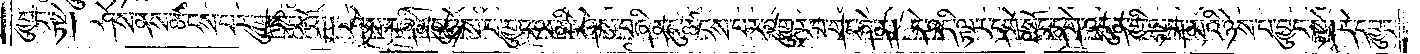བྱུང་སྟེ། ཤེས་ནས་ཚངས་པར་གྱུར་པའོ། །ཤེས་བཞིན་དུ་ཉེས་པ་བྱུང་ལ་མི་ཤེས་བཞིན་དུ་ཚངས་པར་འགྱུར་བ་གང་ཞེ་ན། དེ་འདི་ལྟར་དགེ་སློང་དགེ་འདུན་གྱི་ལྷག་མའི་ཉེས་པ་བྱུང་སྟེ། དེ་དབྱུང་
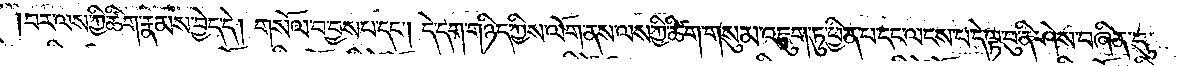བར་ལས་ཀྱི་ཚིག་རྣམས་བྱེད་དེ། གསོལ་བ་བྱས་པ་དང༌། དེ་དག་གཉིད་ཀྱིས་ལོག་ནས་ལས་ཀྱི་ཚིག་གསུམ་འཇུག་ཏུ་ཕྱིན་པ་དང་ལངས་པ་དེ་ལྟ་བུ་ནི་ཤེས་བཞིན་དུ་
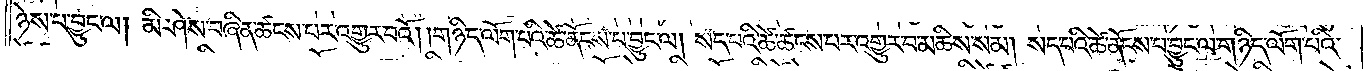ཉེས་པ་བྱུང་ལ། མི་ཤེས་བཞིན་ཚངས་པར་འགྱུར་བའོ། །གཉིད་ལོག་པའི་ཚེ་ནོངས་པ་བྱུང་ལ། སད་པའི་ཚེ་ཚངས་པར་འགྱུར་བ་མཆིས་སམ། སད་པའི་ཚེ་ནོངས་པ་བྱུང་ལ་གཉིད་ལོག་པའི་
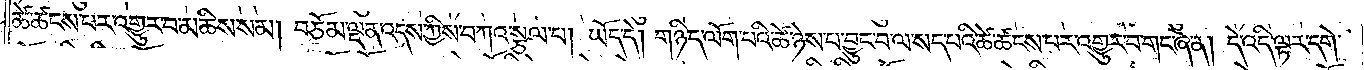ཚེ་ཚངས་པར་འགྱུར་བ་མཆིས་སམ། བཅོམ་ལྡན་འདས་ཀྱིས་བཀའ་སྩལ་པ། ཡོད་དེ། གཉིད་ལོག་པའི་ཚེ་ཉེས་པ་བྱུང་བ་ལ་སད་པའི་ཚེ་ཚངས་པར་འགྱུར་བ་གང་ཞེ་ན། དེ་འདི་ལྟར་དགེ་
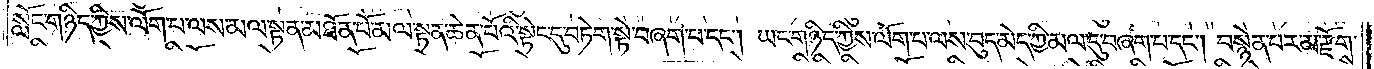སློང་གཉིད་ཀྱིས་ལོག་པ་ལས་མལ་སྟན་མཐོན་པོ་མལ་སྟན་ཆེན་པོའི་སྟེང་དུ་བཏེག་སྟེ་བཞག་པ་དང༌། ཡང་གཉིད་ཀྱིས་ལོག་པ་ལས་བུད་མེད་ཀྱི་མལ་དུ་བཞག་པ་དང༌། བསྙེན་པར་མ་རྫོགས་
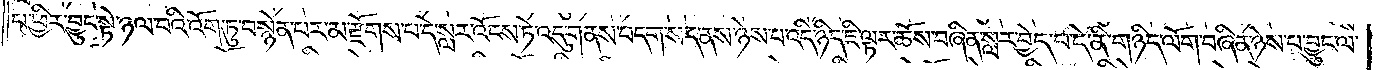པ་ཕྱིར་བྱུང་སྟེ་ཉལ་བའི་འོག་ཏུ་བསྙེན་པར་མ་རྫོགས་པ་དེ་སླར་འོངས་ཏེ་འདུ་གནས་བདག་སད་ནས་ཉེས་པ་འདི་ཉིད་ཇི་ལྟར་ཆོས་བཞིན་སླར་བྱེད་པ་དེ་ནི་གཉིད་ལོག་བཞིན་ཉེས་པ་བྱུང་ལ་
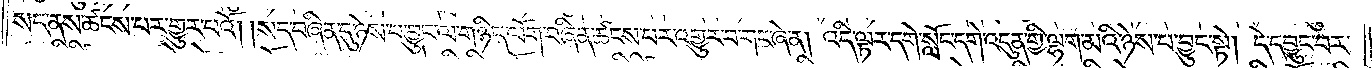སད་ནས་ཚངས་པར་གྱུར་བའོ། །སད་བཞིན་དུ་ཉེས་པ་བྱུང་ལ་གཉིད་ལོག་བཞིན་ཚངས་པར་འགྱུར་བ་གང་ཞེ་ན། འདི་ལྟར་དགེ་སློང་དགེ་འདུན་གྱི་ལྷག་མའི་ཉེས་པ་བྱུང་སྟེ། དེ་དབྱུང་བར་
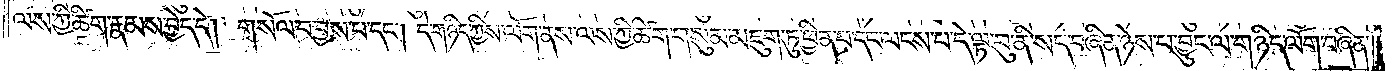ལས་ཀྱི་ཚིག་རྣམས་བྱེད་དེ། གསོལ་བ་བྱས་པ་དང༌། དེ་གཉིད་ཀྱིས་ལོག་ནས་ལས་ཀྱི་ཚིག་གསུམ་མཇུག་ཏུ་ཕྱིན་པ་དང་ལངས་པ་དེ་ལྟ་བུ་ནི་སད་བཞིན་ཉེས་པ་བྱུང་ལ་གཉིད་ལོག་བཞིན་
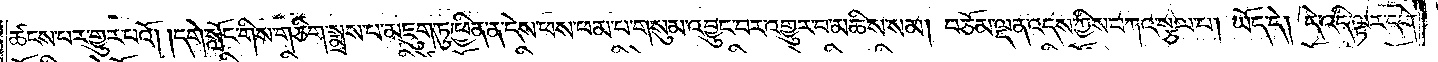ཚངས་པར་གྱུར་པའོ། །དགེ་སློང་གིས་གཅིག་སྨྲས་པ་མཇུག་ཏུ་ཕྱིན་ན་དེས་ཕས་ཕམ་པ་གསུམ་འབྱུང་བར་འགྱུར་བ་མཆིས་སམ། བཅོམ་ལྡན་འདས་ཀྱིས་བཀའ་སྩལ་པ། ཡོད་དེ། དེ་འདི་ལྟར་དགེ་
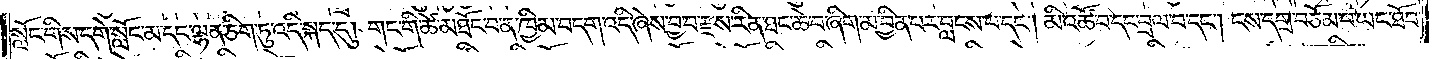སློང་གིས་དགེ་སློང་མ་དང་ལྷན་ཅིག་ཏུ་འདི་སྐད་དུ། གང་གི་ཚེ་མཐོང་བ་ན་ཁྱིམ་བདག་འདི་ཞེས་བྱ་བ་རྫས་རིན་ཐང་ཆེ་བ་ཞིག་མ་བྱིན་པར་བླངས་པ་དང༌། མི་འཚོ་བ་དང་བྲལ་བ་དང༌། ངས་དགྲ་བཅོམ་པ་ཡང་ཐོབ་
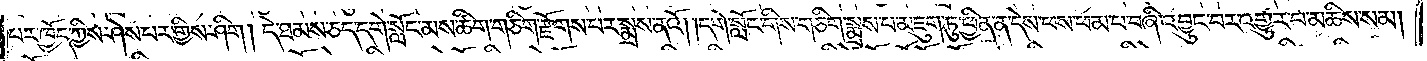པར་ཁྱོད་ཀྱིས་ཤེས་པར་གྱིས་ཤིག །དེ་ཐམས་ཅད་དགེ་སློང་མས་ཚིག་གཅིག་རྫོགས་པར་སྨྲས་ནའོ། །དགེ་སློང་གིས་གཅིག་སྨྲས་པ་མཇུག་ཏུ་ཕྱིན་ན་དེས་ཕས་ཕམ་པ་བཞི་འབྱུང་བར་འགྱུར་བ་མཆིས་སམ།
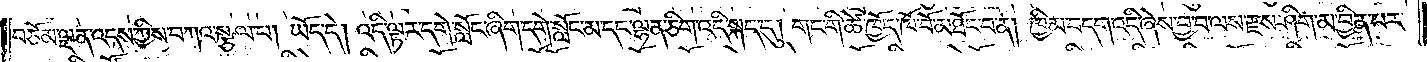བཅོམ་ལྡན་འདས་ཀྱིས་བཀའ་སྩལ་པ། ཡོད་དེ། འདི་ལྟར་དགེ་སློང་ཞིག་དགེ་སློང་མ་དང་ལྷན་ཅིག་འདི་སྐད་དུ། གང་གི་ཚེ་ཁྱོད་ཁོ་བོ་མཐོང་བ་ན། ཁྱིམ་བདག་འདི་ཞེས་བྱ་བ་ལས་རྫས་ཤིག་མ་བྱིན་པར་
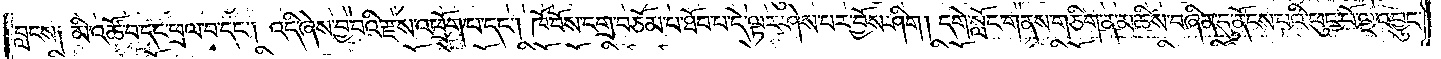བླངས༑ མི་འཚོ་བ་དང་ཕྲལ་བ་དང༌། འདི་ཞེས་བྱ་བའི་རྫས་འཕྲོག་པ་དང༌། ཁོ་བོས་དགྲ་བཅོམ་པ་ཐོབ་པ་དེ་ལྟར་ཤེས་པར་བྱོས་ཤིག །དགེ་སློང་གནས་གཅིག་ན་མཆིས་བཞིན་དུ་ནོངས་པའི་ཕུང་པོ་ལྔ་འབྱུང་
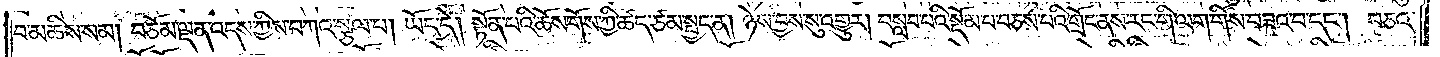བ་མཆིས་སམ། བཅོམ་ལྡན་འདས་ཀྱིས་བཀའ་སྩལ་པ། ཡོད་དེ། སྟོན་པའི་ཆོས་གོས་ཀྱི་ཚད་ཙམ་སྤྱད་ན། ཉེས་བྱས་སུ་འགྱུར། བསླབ་པའི་སྡོམ་པ་བཅས་པའི་གྲོང་ནས་རང་གི་ལག་གིས་བཟའ་བ་དང༌། བཅའ་
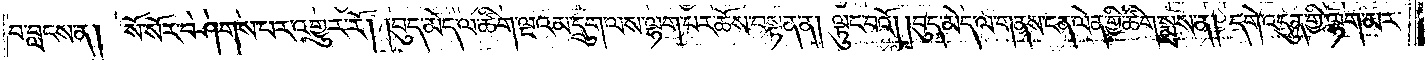བ་བླངས་ན། སོ་སོར་བཤགས་པར་འགྱུར་རོ། །བུད་མེད་ལ་ཚིག་ལྔའམ་དྲུག་ལས་ལྷག་པར་ཆོས་བསྟན་ན། ལྟུང་བའོ། །བུད་མེད་ལ་གནས་ངན་ལེན་གྱི་ཚིག་སྨྲས་ན། དགེ་འདུན་གྱི་ལྷག་མར་
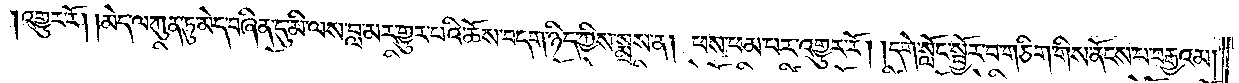འགྱུར་རོ། །མེད་ལ་ཀུན་ཏུ་མེད་བཞིན་དུ་མི་ལས་བླ་མར་གྱུར་པའི་ཆོས་བདག་ཉིད་ཀྱིས་སྨྲས་ན། ཕས་ཕམ་པར་འགྱུར་རོ། །དགེ་སློང་སྦྱོང་བ་གཅིག་གིས་ནོངས་པ་བརྒྱའམ།
